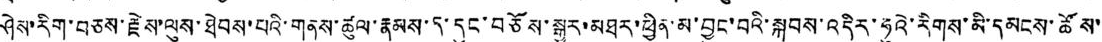ཤེས་རིག་བཅས་རྗེས་ལུས་ཐེབས་པའི་གནས་ཚུལ་རྣམས་ད་དུང་བཅོས་སྒྱུར་མཐར་ཕྱིན་མ་བྱུང་བའི་སྐབས་འདིར་ཧུའེ་རིགས་མི་དམངས་ཚོས་
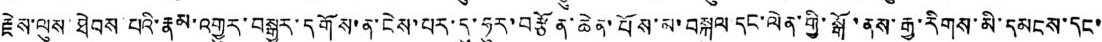རྗེས་ལུས་ཐེབས་པའི་རྣམ་འགྱུར་བསྒྱུར་དགོས་ན་ངེས་པར་དུ་ཧུར་བརྩོན་ཆེན་པོས་མ་བསྐུལ་དང་ལེན་གྱི་སྒོ་ནས་རྒྱ་རིགས་མི་དམངས་དང་
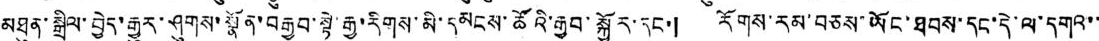མཐུན་སྒྲིལ་བྱེད་རྒྱུར་ཤུགས་སྣོན་བརྒྱབ་སྟེ་རྒྱ་རིགས་མི་དམངས་ཚོའི་རྒྱབ་སྐྱོར་རང་། རོགས་རམ་བཅས་ཡོང་ཐབས་དང་དེ་ལ་དགའ་་
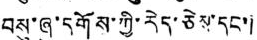བསུ་ཞུ་དགོས་ཀྱི་རེད་ཅེས་དང་།
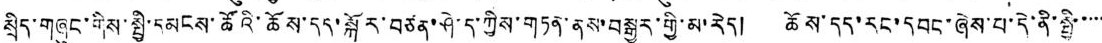སྲིད་གཞུང་གིས་སྤྱི་དམངས་ཚོའི་ཆོས་དད་སྐོར་བཙན་ཤེ་ད་ཀྱིས་གཏན་ནས་བསྒྱུར་གྱི་མ་རེད། ཆོས་དད་རང་དབང་ཞེས་པ་དེ་ནི་སྤྱི་་་་་
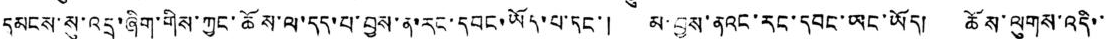དམངས་སུ་འདྲ་ཞིག་གིས་ཀྱང་ཆོས་ལ་དད་པ་བྱས་ན་རང་དབང་ཡོད་པ་དང་། མ་བྱས་ནའང་རང་དབང་ཡང་ཡོད། ཆོས་ལུགས་འདི་་
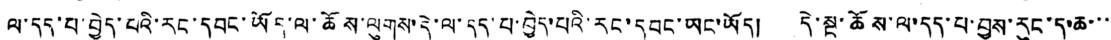ལ་དད་པ་བྱེད་པའི་རང་དབང་ཡོད་ལ་ཆོས་ལུགས་དེ་ལ་དད་པ་བྱེད་པའི་རང་དབང་ཡང་ཡོད། དེ་སྔ་ཆོས་ལ་དད་པ་བྱས་རུང་ད་ཆ་་་
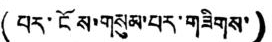(པར་ངོས་གསུམ་པ་གཟིགས་)
